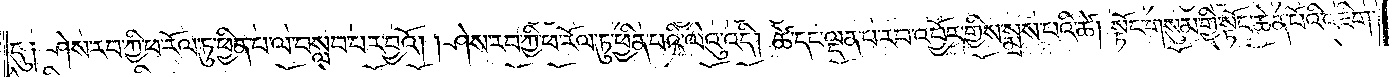དུ༏ ཤེས་རབ་ཀྱི་ཕ་རོལ་ཏུ་ཕྱིན་པ་ལ་བསླབ་པར་བྱའོ། །ཤེས་རབ་ཀྱི་ཕ་རོལ་ཏུ་ཕྱིན་པའི་ལེའུ་འདི། ཚེ་དང་ལྡན་པ་རབ་འབྱོར་གྱིས་སྨྲས་པའི་ཚེ། སྟོང་གསུམ་གྱི་སྟོང་ཆེན་པོའི་འཇིག་
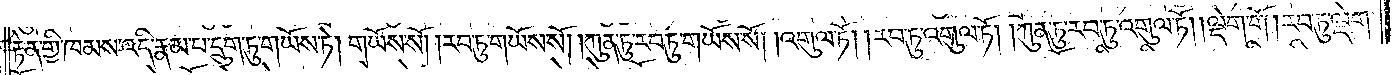རྟེན་གྱི་ཁམས་འདི་རྣམ་པ་དྲུག་ཏུ་གཡོས་ཏེ། གཡོས་སོ། །རབ་ཏུ་གཡོས་སོ། །ཀུན་ཏུ་རབ་ཏུ་གཡོས་སོ། །འགུལ་ཏོ། རབ་ཏུ་འགུལ་ཏོ། །ཀུན་ཏུ་རབ་ཏུ་འགུལ་ཏོ། །ལྡེག་གོ །རབ་ཏུ་ལྡེག་
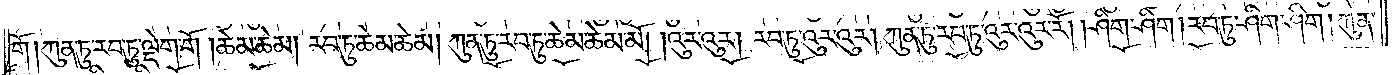གོ །ཀུན་ཏུ་རབ་ཏུ་ལྡེག་གོ །ཆེམ་ཆེམ། རབ་ཏུ་ཆེམ་ཆེམ། ཀུན་ཏུ་རབ་ཏུ་ཆེམ་ཆེམ་མོ། །འུར་འུར། རབ་ཏུ་འུར་འུར། ཀུན་ཏུ་རབ་ཏུ་འུར་འུར་རོ། ཤིག་ཤིག །རབ་ཏུ་ཤིག་ཤིག །ཀུན་
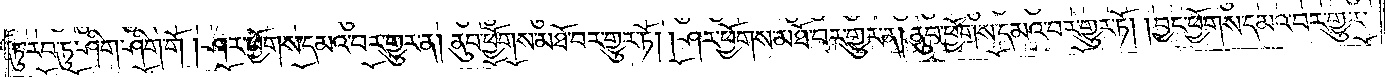ཏུ་རབ་ཏུ་ཤིག་ཤིག་གོ །ཤར་ཕྱོགས་དམའ་བར་གྱུར་ན། ནུབ་ཕྱོགས་མཐོ་བར་གྱུར་ཏོ། །ཤར་ཕྱོགས་མཐོ་བར་གྱུར་ན། ནུབ་ཕྱོགས་དམའ་བར་གྱུར་ཏོ། །བྱང་ཕྱོགས་དམའ་བར་གྱུར་
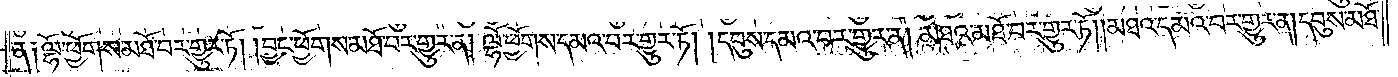ན༏ ལྷོ་ཕྱོགས་མཐོ་བར་གྱུར་ཏོ། །བྱང་ཕྱོགས་མཐོ་བར་གྱུར་ན། ལྷོ་ཕྱོགས་དམའ་བར་གྱུར་ཏོ། །དབུས་དམའ་བར་གྱུར་ན། མཐའ་མཐོ་བར་གྱུར་ཏོ། མཐའ་དམའ་བར་གྱུར་ན། དབུས་མཐོ་
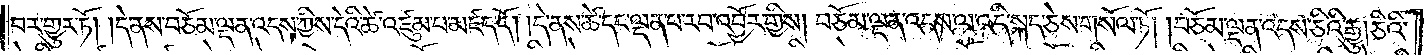བར་གྱུར་ཏོ། །དེ་ནས་བཅོམ་ལྡན་འདས་ཀྱིས་དེའི་ཚེ་འཛུམ་པ་མཛད་དོ། །དེ་ནས་ཚེ་དང་ལྡན་པ་རབ་འབྱོར་གྱིས། བཅོམ་ལྡན་འདས་ལ་འདི་སྐད་ཅེས་གསོལ་ཏོ། །བཅོམ་ལྡན་འདས་ཅིའི་རྒྱུ། ཅིའི་
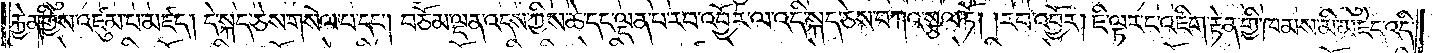རྐྱེན་གྱིས་འཛུམ་པ་མཛད། དེ་སྐད་ཅེས་གསེལ་པ་དང༌། བཅོམ་ལྡན་འདས་ཀྱིས་ཚེ་དང་ལྡན་པ་རབ་འབྱོར་ལ་འདི་སྐད་ཅེས་བཀའ་སྩལ་ཏོ། །རབ་འབྱོར། ཇི་ལྟར་ང་འཇིག་རྟེན་གྱི་ཁམས་མི་མཇེད་འདི་
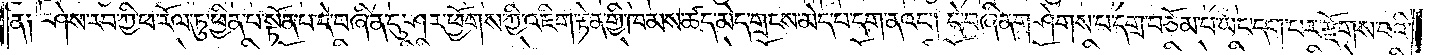ན༏ ཤེས་རབ་ཀྱི་ཕ་རོལ་ཏུ་ཕྱིན་པ་སྟོན་པ་དེ་བཞིན་དུ་ཤར་ཕྱོགས་ཀྱི་འཇིག་རྟེན་གྱི་ཁམས་ཚད་མེད་གྲངས་མེད་པ་དག་ནའང༌། དེ་བཞིན་གཤེགས་པ་དགྲ་བཅོམ་པ་ཡང་དག་པར་རྫོགས་པའི་
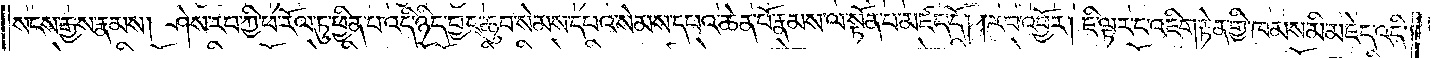སངས་རྒྱས་རྣམས། ཤེས་རབ་ཀྱི་ཕ་རོལ་ཏུ་ཕྱིན་པ་འདི་ཉིད་བྱང་ཆུབ་སེམས་དཔའ་སེམས་དཔའ་ཆེན་པོ་རྣམས་ལ་སྟོན་པ་མཛད་དོ། །རབ་འབྱོར། ཇི་ལྟར་ང་འཇིག་རྟེན་གྱི་ཁམས་མི་མཇེད་འདི་
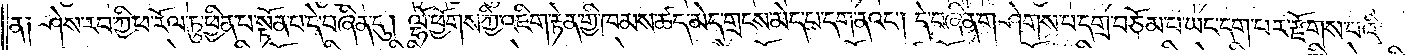ན༑ ཤེས་རབ་ཀྱི་ཕ་རོལ་ཏུ་ཕྱིན་པ་སྟོན་པ་དེ་བཞིན་དུ། ལྷོ་ཕྱོགས་ཀྱི་འཇིག་རྟེན་གྱི་ཁམས་ཚད་མེད་གྲངས་མེད་པ་དག་ནའང༌། དེ་བཞིན་གཤེགས་པ་དགྲ་བཅོམ་པ་ཡང་དག་པར་རྫོགས་པའི་
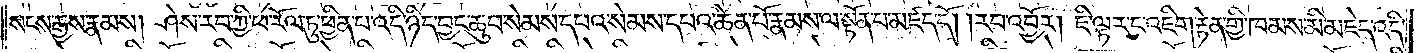སངས་རྒྱས་རྣམས། ཤེས་རབ་ཀྱི་ཕ་རོལ་ཏུ་ཕྱིན་པ་འདི་ཉིད་བྱང་ཆུབ་སེམས་དཔའ་སེམས་དཔའ་ཆེན་པོ་རྣམས་ལ་སྟོན་པ་མཛད་དོ། །རབ་འབྱོར། ཇི་ལྟར་ང་འཇིག་རྟེན་གྱི་ཁམས་མི་མཇེད་འདི་
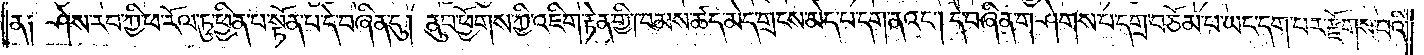ན༏ ཤེས་རབ་ཀྱི་ཕ་རོལ་ཏུ་ཕྱིན་པ་སྟོན་པ་དེ་བཞིན་དུ། ནུབ་ཕྱོགས་ཀྱི་འཇིག་རྟེན་གྱི་ཁམས་ཚད་མེད་གྲངས་མེད་པ་དག་ནའང༌། དེ་བཞིན་གཤེགས་པ་དགྲ་བཅོམ་པ་ཡང་དག་པར་རྫོགས་པའི་
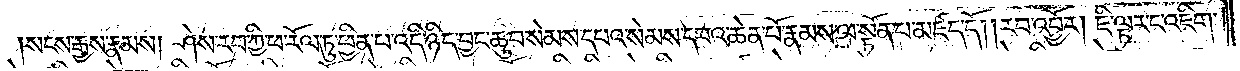སངས་རྒྱས་རྣམས། ཤེས་རབ་ཀྱི་ཕ་རོལ་ཏུ་ཕྱིན་པ་འདི་ཉིད་བྱང་ཆུབ་སེམས་དཔའ་སེམས་དཔའ་ཆེན་པོ་རྣམས་ལ་སྟོན་པ་མཛད་དོ། །རབ་འབྱོར། ཇི་ལྟར་ང་འཇིག་
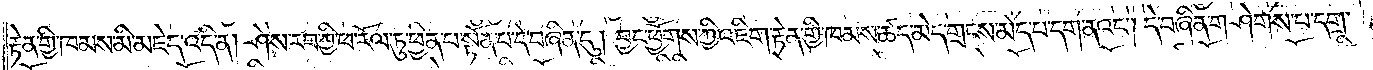རྟེན་གྱི་ཁམས་མི་མཇེད་འདི་ན། ཤེས་རབ་ཀྱི་ཕ་རོལ་ཏུ་ཕྱིན་པ་སྟོན་པ་དེ་བཞིན་དུ། བྱང་ཕྱོགས་ཀྱི་འཇིག་རྟེན་གྱི་ཁམས་ཚད་མེད་གྲངས་མེད་པ་དག་ནའང༌། དེ་བཞིན་གཤེགས་པ་དགྲ་
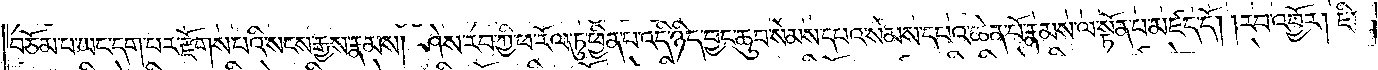བཅོམ་པ་ཡང་དག་པར་རྫོགས་པའི་སངས་རྒྱས་རྣམས། ཤེས་རབ་ཀྱི་ཕ་རོལ་ཏུ་ཕྱིན་པ་འདི་ཉིད་བྱང་ཆུབ་སེམས་དཔའ་སེམས་དཔའ་ཆེན་པོ་རྣམས་ལ་སྟོན་པ་མཛད་དོ། །རབ་འབྱོར། ཇི་
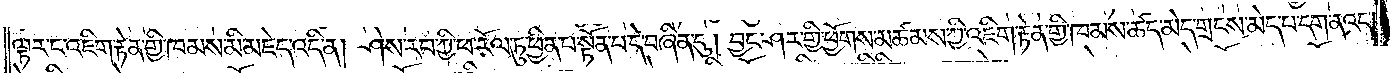ལྟར་ང་འཇིག་རྟེན་གྱི་ཁམས་མི་མཇེད་འདི་ན། ཤེས་རབ་ཀྱི་ཕ་རོལ་ཏུ་ཕྱིན་པ་སྟོན་པ་དེ་བཞིན་དུ། བྱང་ཤར་གྱི་ཕྱོགས་མཚམས་ཀྱི་འཇིག་རྟེན་གྱི་ཁམས་ཚད་མེད་གྲངས་མེད་པ་དག་ནའང༌།
